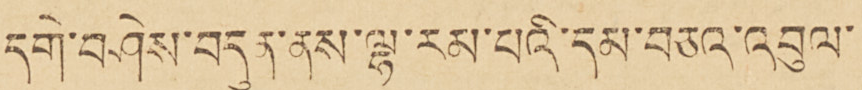དགེ་བཤེས་བདུན་ནས་ལྷ་རམ་པའི་དམ་བཅའ་འབུལ་
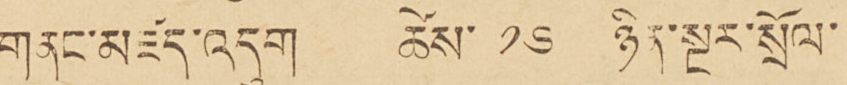གནང་མཛད་འདུག ཚེས་ ༡༦ ཉིན་ལྔར་སྲོལ་
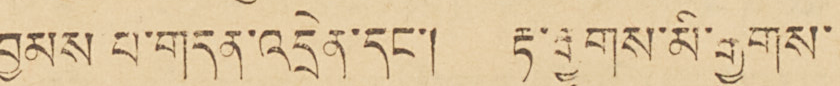བྱམས པ་གདན་འདྲེན་དང་། རྟ་རྒྱུགས་མི་རྒྱུགས་
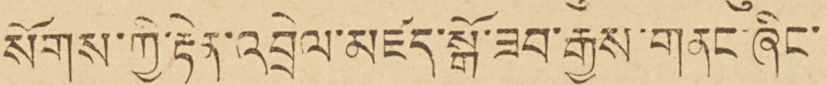སོགས་ཀྱི་རྟེན་འབྲེལ་མཛད་སྒོ་ཟབ་རྒྱས་གནང་ཞིང་
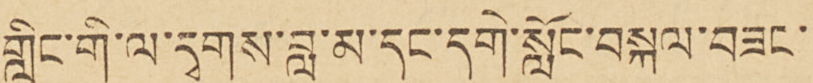གླིང་གི་ལ་དྭགས་བླ་མ་དང་དགེ་སློང་བསྐལ་བཟང་
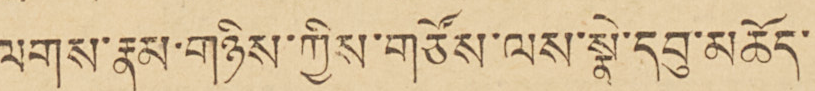ལགས་རྣམ་གཉིས་ཀྱིས་གཙོན་ལས་སྣེ་དབུ་མཆོད་
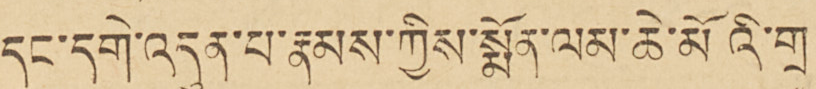དང་དགེ་འདུན་པ་རྣམས་ཀྱིས་སྨོན་ལམ་ཆེ་མོའི་གྲ
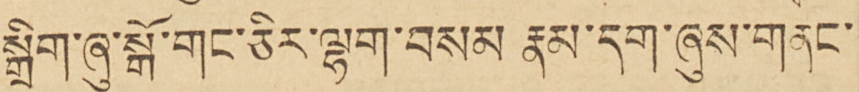སྒྲིག་ཞུ་སྒོ་གང་ཅིར་ལྷག་བསམ རྣམ་དག་ཞུས་གནང་
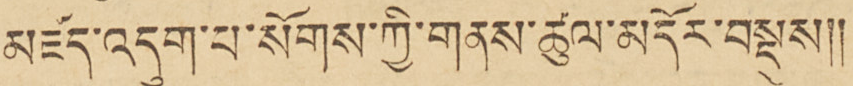མཛད་འདུག་པ་སོགས་ཀྱི་གནས་ཚུལ་མདོར་བསྡུས།།
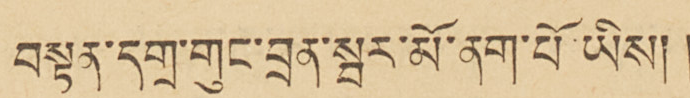བསྟན་དགྲ་གུང་བྲན་སྦར་མོ་ནག་པོ་ཡིས།།
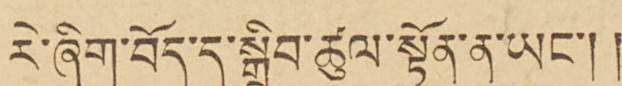རེ་ཞིག་བོད་དུ་སྒྲིབ་ཚུལ་སྟོན་ན་ཡང་།།
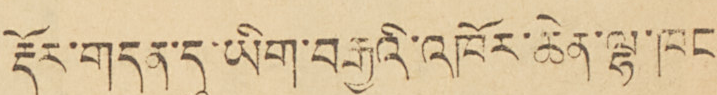རྡོར་གདན་དུ་ཡིག་བརྒྱའི་འཁོར་ཆེན་ལྷ་ཁང་
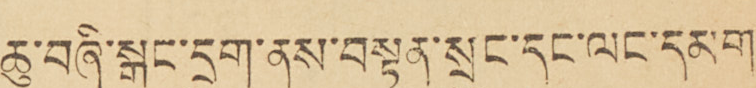ཆུ་བཞི་སྒང་དྲུག་ནས་བསྟན་སྲུང་དང་ལང་དམག་
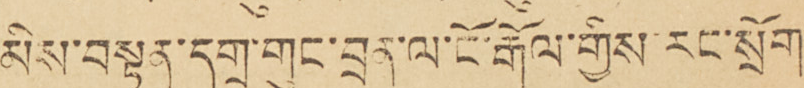མིས་བསྟན་དགྲ་གུང་བྲན་ལ་ངོ་རྒོལ་གྱིས་རང་སྲོག་
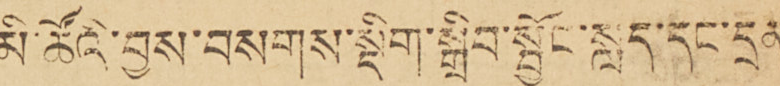མི་ཚོའི་བྱས་བསགས་སྡིག་སྒྲིབ་སྦྱོང་སླད་དང་དྲན་
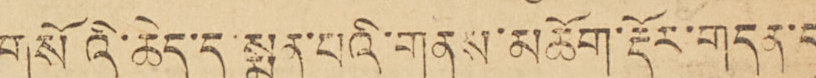དསོའི་ཆེད་དུ་སྨན་པའི་གནས་མཆོག་རྡོར་གདན་དུ་
